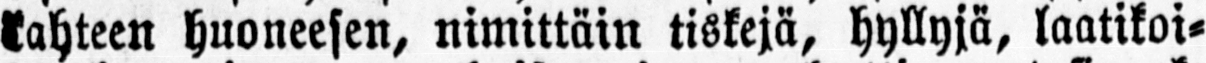kahteen huoneesen, nimittäin tiskejä, hyllyjä, laatikoi-
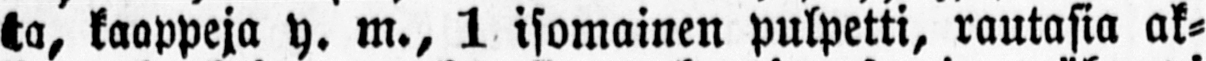ta, kaappeja y.m., 1 isomainen pulpetti, rautasia ak-
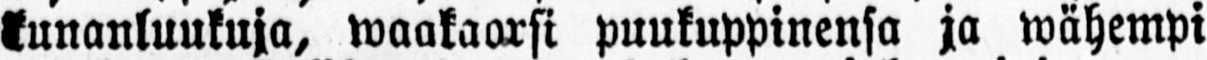kunanluukuja, waakaorsi puukuppinensa ja wähempi
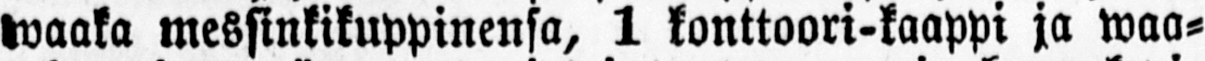waaka messinkikuppinensa, 1 konttoori-kaappi ja waa-
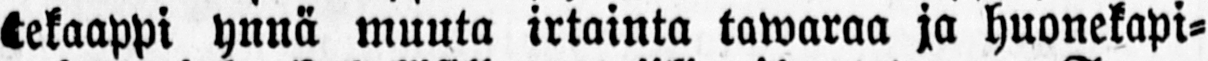tekaappi ynnä muuta irtainta tawaraa ja huonekapi-
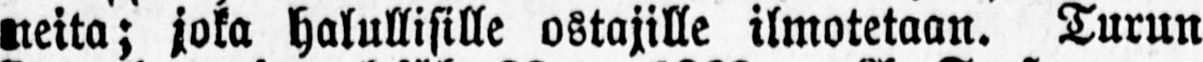neita; joka halullisille ostajille ilmotetaan. Turun
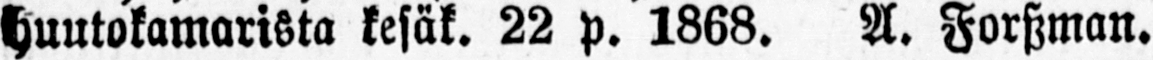huutokamarista kesäk. 22 p.1868. A. Forszman.
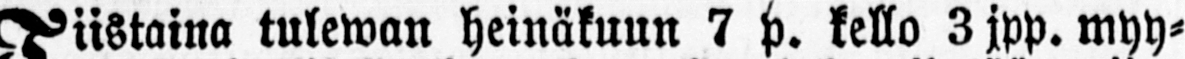Tiistaina tulewan heinäkuun 7 p. kello 3 jpp. myy-
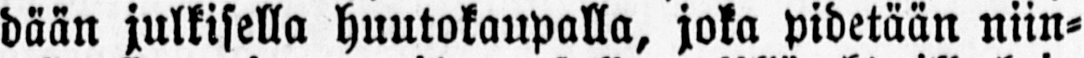dään julkisella huutokaupalla, joka pidetään niin-
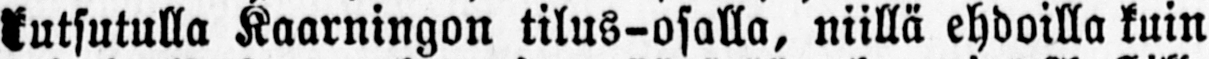kutsutulla Kaarningon tilus-osalla, niillä ehdoilla kuin
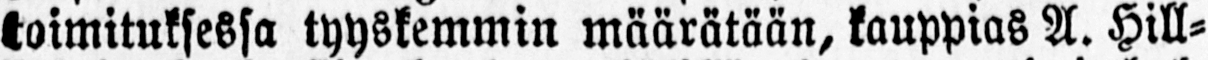toimituksessa tyyskemmin määrätään, kauppias A. Hill-
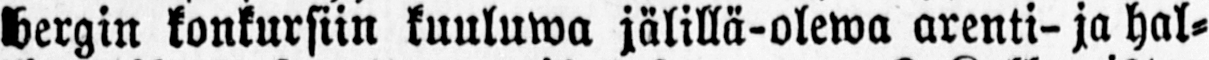bergin konkursiin kuuluwa jälillä-olewa arenti-ja hal-
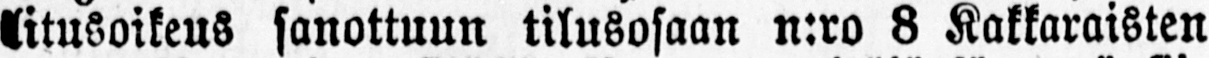litusoikeus sanottuun tilusosaan n:ro 8 Kakkaraisten
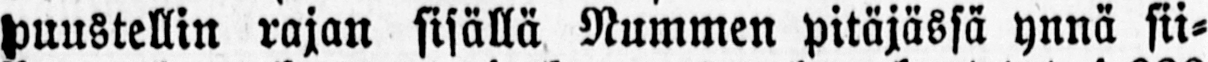puustellin rajan sisällä Nummen pitäjässä ynnä sii-
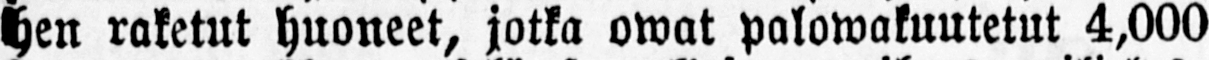hen raketut huoneet, jotka owat palowakuutetut 4,000
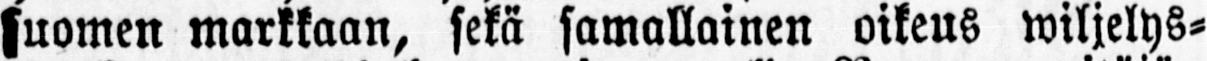suomen markkaan, sekä samallainen oikeus wiljelys-
